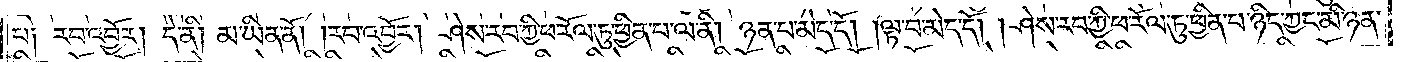པ༑ རབ་འབྱོར། དེ་ནི། མ་ཡིན་ནོ། །རབ་འབྱོར། ཤེས་རབ་ཀྱི་ཕ་རོལ་ཏུ་ཕྱིན་པ་ལ་ནི། ཉན་པ་མེད་དོ། །ལྟ་བ་མེད་དོ། །ཤེས་རབ་ཀྱི་ཕ་རོལ་ཏུ་ཕྱིན་པ་ཉིད་ཀྱང་མི་ཉན་
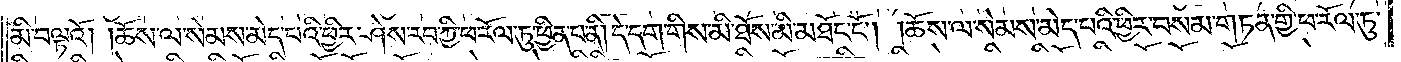མི་བལྟའོ། །ཆོས་ལ་སེམས་མེད་པའི་ཕྱིར་ཤེས་རབ་ཀྱི་ཕ་རོལ་ཏུ་ཕྱིན་པ་ནི། དེ་དག་གིས་མི་ཐོས་མི་མཐོང་ངོ༌། །ཆོས་ལ་སེམས་མེད་པའི་ཕྱིར་བསམ་གཏན་གྱི་ཕ་རོལ་ཏུ་
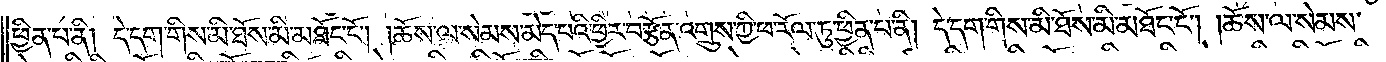ཕྱིན་པ་ནི། དེ་དག་གིས་མི་ཐོས་མི་མཐོང་ངོ༌། །ཆོས་ལ་སེམས་མེད་པའི་ཕྱིར་བརྩོན་འགྲུས་ཀྱི་ཕ་རོལ་ཏུ་ཕྱིན་པ་ནི། དེ་དག་གིས་མི་ཐོས་མི་མཐོང་ངོ༌། །ཆོས་ལ་སེམས་
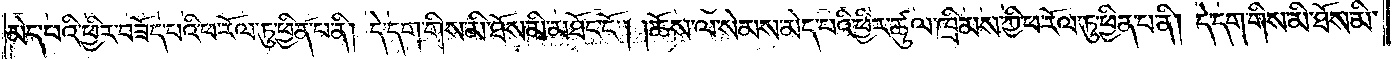མེད་པའི་ཕྱིར་བཟོད་པའི་ཕ་རོལ་ཏུ་ཕྱིན་པ་ནི། དེ་དག་གིས་མི་ཐོས་མི་མཐོང་ངོ༌། །ཆོས་ལ་སེམས་མེད་པའི་ཕྱིར་ཚུལ་ཁྲིམས་ཀྱི་ཕ་རོལ་ཏུ་ཕྱིན་པ་ནི། དེ་དག་གིས་མི་ཐོས་མི་
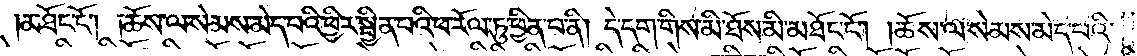མཐོང་ངོ༌། །ཆོས་ལ་སེམས་མེད་པའི་ཕྱིར་སྦྱིན་པའི་ཕ་རོལ་ཏུ་ཕྱིན་པ་ནི། དེ་དག་གིས་མི་ཐོས་མི་མཐོང་ངོ༌། །ཆོས་ལ་སེམས་མེད་པའི་
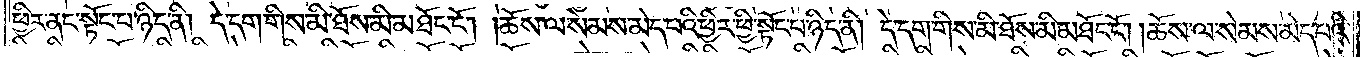ཕྱིར་ནང་སྟོང་པ་ཉིད་ནི། དེ་དག་གིས་མི་ཐོས་མི་མཐོང་ངོ༌། །ཆོས་ལ་སེམས་མེད་པའི་ཕྱིར་ཕྱི་སྟོང་པ་ཉིད་ནི། དེ་དག་གིས་མི་ཐོས་མི་མཐོང་ངོ༌། །ཆོས་ལ་སེམས་མེད་པའི་
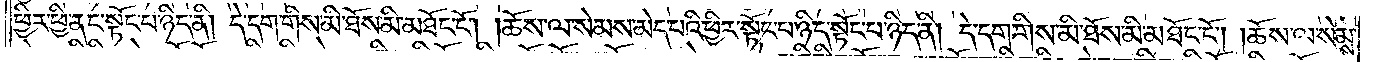ཕྱིར་ཕྱི་ནང་སྟོང་པ་ཉིད་ནི། དེ་དག་གིས་མི་ཐོས་མི་མཐོང་ངོ༌། །ཆོས་ལ་སེམས་མེད་པའི་ཕྱིར་སྟོང་པ་ཉིད་སྟོང་པ་ཉིད་ནི། དེ་དག་གིས་མི་ཐོས་མི་མཐོང་ངོ༌། །ཆོས་ལ་སེམས་
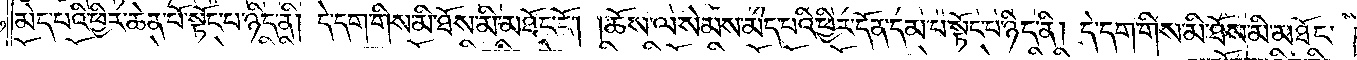མེད་པའི་ཕྱིར་ཆེན་པོ་སྟོང་པ་ཉིད་ནི། དེ་དག་གིས་མི་ཐོས་མི་མཐོང་ངོ༌། །ཆོས་ལ་སེམས་མེད་པའི་ཕྱིར་དོན་དམ་པ་སྟོང་པ་ཉིད་ནི། དེ་དག་གིས་མི་ཐོས་མི་མཐོང་
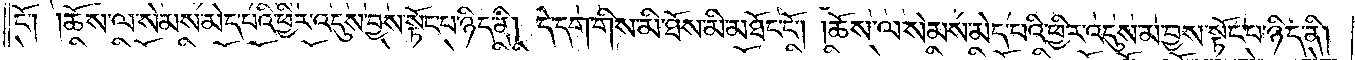ངོ༌། །ཆོས་ལ་སེམས་མེད་པའི་ཕྱིར་འདུས་བྱས་སྟོང་པ་ཉིད་ནི། དེ་དག་གིས་མི་ཐོས་མི་མཐོང་ངོ༌། །ཆོས་ལ་སེམས་མེད་པའི་ཕྱིར་འདུས་མ་བྱས་སྟོང་པ་ཉིད་ནི།
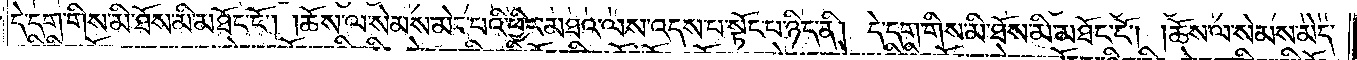དེ་དག་གིས་མི་ཐོས་མི་མཐོང་ངོ༌། །ཆོས་ལ་སེམས་མེད་པའི་ཕྱིར་མཐའ་ལས་འདས་པ་སྟོང་པ་ཉིད་ནི། དེ་དག་གིས་མི་ཐོས་མི་མཐོང་ངོ༌། །ཆོས་ལ་སེམས་མེད་
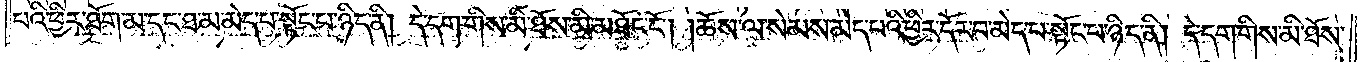པའི་ཕྱིར་ཐོག་མ་དང་ཐ་མ་མེད་པ་སྟོང་པ་ཉིད་ནི། དེ་དག་གིས་མི་ཐོས་མི་མཐོང་ངོ༌། །ཆོས་ལ་སེམས་མེད་པའི་ཕྱིར་དོར་བ་མེད་པ་སྟོང་པ་ཉིད་ནི། དེ་དག་གིས་མི་ཐོས་
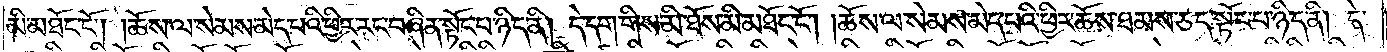མི་མཐོང་ངོ༌། །ཆོས་ལ་སེམས་མེད་པའི་ཕྱིར་རང་བཞིན་སྟོང་པ་ཉིད་ནི། དེ་དག་གིས་མི་ཐོས་མི་མཐོང་ངོ༌། །ཆོས་ལ་སེམས་མེད་པའི་ཕྱིར་ཆོས་ཐམས་ཅད་སྟོང་པ་ཉིད་ནི། དེ་
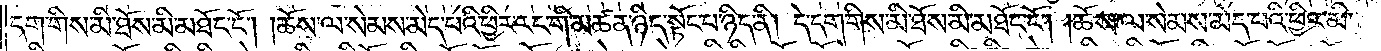དག་གིས་མི་ཐོས་མི་མཐོང་ངོ༌། །ཆོས་ལ་སེམས་མེད་པའི་ཕྱིར་རང་གི་མཚན་ཉིད་སྟོང་པ་ཉིད་ནི། དེ་དག་གིས་མི་ཐོས་མི་མཐོང་ངོ༌། །ཆོས་ལ་སེམས་མེད་པའི་ཕྱིར་མི་
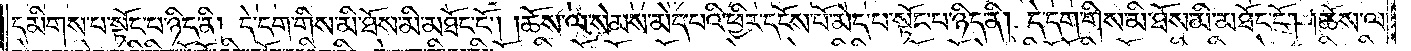དམིགས་པ་སྟོང་པ་ཉིད་ནི། དེ་དག་གིས་མི་ཐོས་མི་མཐོང་ངོ༌། །ཆོས་ལ་སེམས་མེད་པའི་ཕྱིར་དངོས་པོ་མེད་པ་སྟོང་པ་ཉིད་ནི། དེ་དག་གིས་མི་ཐོས་མི་མཐོང་ངོ༌། །ཆོས་ལ་
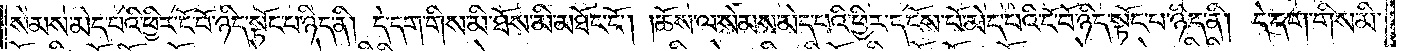སེམས་མེད་པའི་ཕྱིར་ངོ་བོ་ཉིད་སྟོང་པ་ཉིད་ནི། དེ་དག་གིས་མི་ཐོས་མི་མཐོང་ངོ༌། །ཆོས་ལ་སེམས་མེད་པའི་ཕྱིར་དངོས་པོ་མེད་པའི་ངོ་བོ་ཉིད་སྟོང་པ་ཉིད་ནི། དེ་དག་གིས་མི་
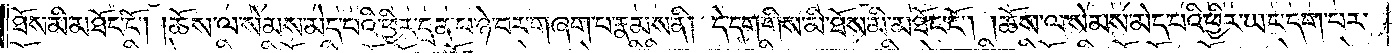ཐོས་མི་མཐོང་ངོ༌། །ཆོས་ལ་སེམས་མེད་པའི་ཕྱིར་དྲན་པ་ཉེ་བར་གཞག་པ་རྣམས་ནི། དེ་དག་གིས་མི་ཐོས་མི་མཐོང་ངོ༌། །ཆོས་ལ་སེམས་མེད་པའི་ཕྱིར་ཡང་དག་པར་
